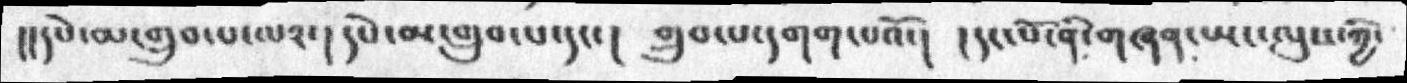།།དཔེ་མ་གྲུབ་པ་ལ༢་། དཔེ་མ་གྲུབ་པ་དང་། གྲུབ་པ་དགག་པའོ་། །དང་པོ་ནི་གཞན་ཡང་ལུས་ཀྱི་
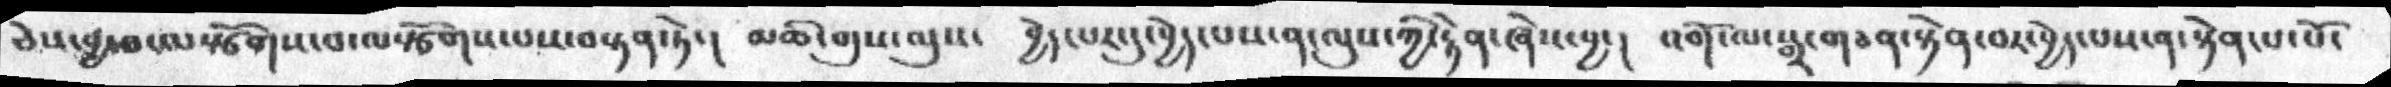ཅེས་བྱ་བ་ལསྩོགས་པ་ལསྩོགས་པས་བསྟན་ཏེ་།  མཆི་གུས་ལུས་  བྱེད་པར་དུ་བྱེད་པས་ན་ལུས་ཀྱི་རྟེན་ཞེས་བྱ་།  འགོ་ལ་སྒྲ་གཅན་སྟེན་བར་བྱེད་པས་ན་སྟེན་པ་པོ་
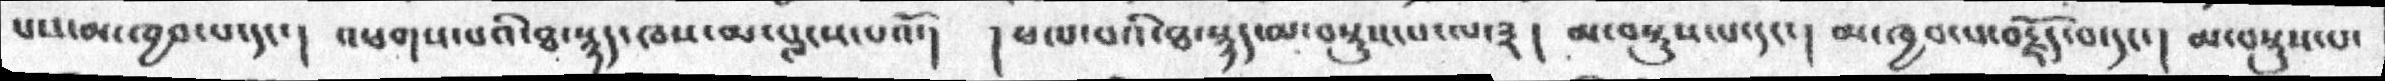པས་མ་ཁྱབ་པ་དང་། འཕགས་པའི་ཐ་སྙད་ཁས་མ་བླངས་པའོ་།  །ཕལ་པའི་ཐ སྙད་མ་བསྡུས་པ་ལ་༣། མ་བསྡུས་པ་དང་། མ་ཁྱབ་པ་བརྗོད་བ་དང་། མ་བསྡུས་པ་
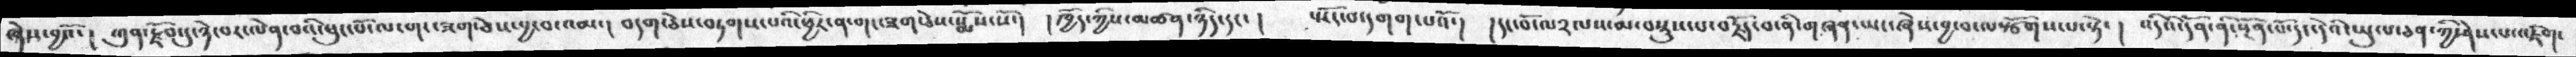ཞེས་བྱའོ་། ཀུན་རྫོབ་དུ་ཉེ་བར་ལེན་བའི་ཕུང་པོ་ལ་གང་ཟག་ཅེས་བྱ་བ་འམ་། བདག་ཅེས་བཏགས་པའི་ཕྱིར་ན་གང་ཟག་ཅེས་སྨོས་སོ་། །ཁྱོད་ཀྱི་མཚན་ཉིད་དང་། སྤོང་བ་དགག་པའོ་། དང་པོ་ལ༢ལས་མ་བསྡུས་པ་བརྗོད་བ་ནི་གཞན་ཡང་ཞེས་བྱ་བ་ལསྩོགས་པ་སྟེ་། འདིའི་དོན་ནི་སྔོན་པོ་དང་དེའི་ཡུལ་ཅན་ཀྱི་ཤེས་པ་འཇིག་
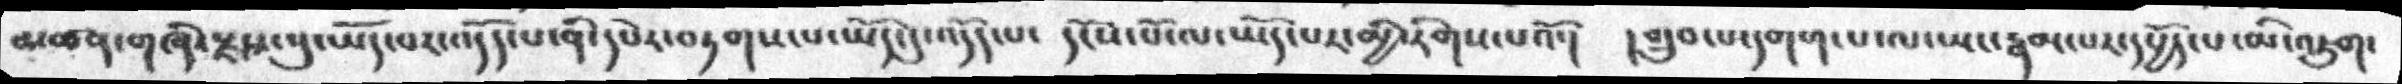མཚན་གཞི་རྫས་སུ་ཡོད་པར་འདོད་པ་ནི་དཔེར་བཏགས་པ་ཡོད་དུ་འདོད་པ་  དངོས་པོ་ལ་ཡོད་པར་མྱི་རིགས་པའོ་། །གྲུབ་པ་དགག་པ་ཡང་རྣམ་པར་དཔྱོད་པ་མི་འཇུག་
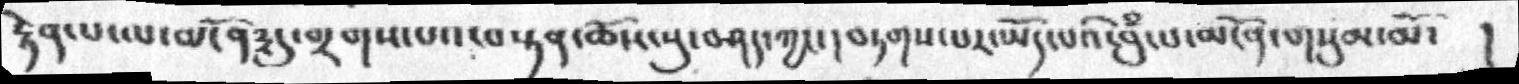རྟེན་པ་ལ་མངོན༣དུ་གྲགས་པའ་བསྟན་ཆོས་སུ་བཤད་ཀྱང་། བཏགས་པར་ཡོད་པའི་བུཾ་པ་མངོན་གསུམ་མོ་ །
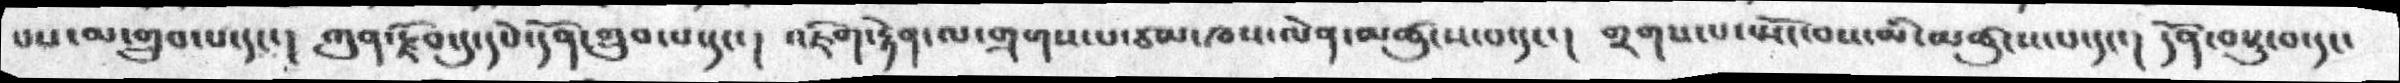པས་མ་གྲུབ་པ་དང་། ཀུན་རྫོབ་དུ་དཔེ་དོན་གྲུབ་པ་དང་།  འཇིག་རྟེན་ལ་གྲགས་པ་ཙམ་ཁས་ལེན་མཚུངས་པ་དང་། གྲགས་པ་སྤོང་བས་མི་མཚུངས་པ་དང་། དོན་བསྡུ་བ་དང་
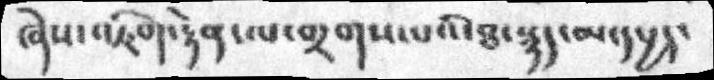ཞེས་འཇིག་རྟེན་ལ་གྲགས་པའི་ཐ་སྙད་མ་དཔྱད་
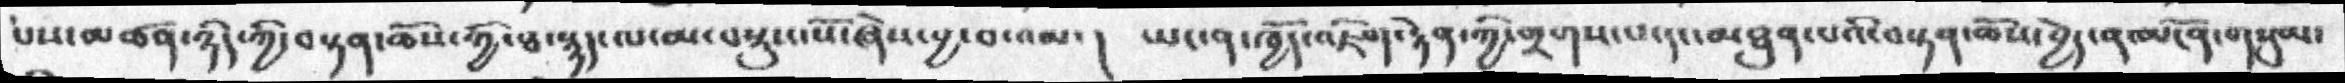པས་མཚན་ཉིད་ཀྱི་བསྟ་ཆོས་ཀྱི་ཐ་སྙད་ལ་མ་བསྡུས་སཔ་ཞེས་བྱ་བ་འམ་།  ཡང་ན་ཁྱོད་འཇིག་རྟེན་ཀྱི་གྲགས་པ་དང་མཐུན་པའི་བསྟན་ཆོས་བྱེད་ན་མངོན་གསུམ་
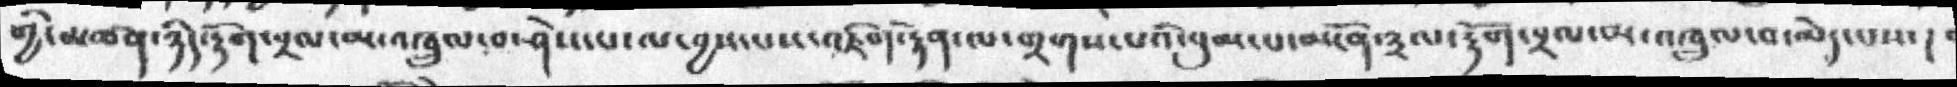གྱི་མཚན་ཉིད་རྟོག་བྲལ་མ་འཁྲུལ་བ་ཤེས་པ་ལ་བྱས་པས་འཇིག་རྟེན་ལ་གྲགས་པའི་བུམ་པ་མངོན་༣ལ་རྟོག་བྲལ་མ་འཁྲུལ་བ་མེད་པས་།
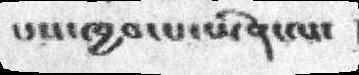པས་ཁྱབ་པ་ཡིན་ལ་
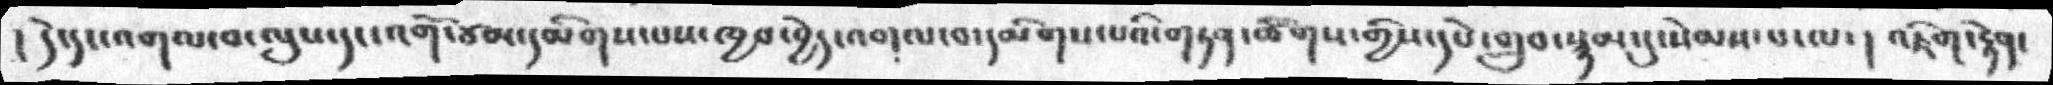། དེ་དང་འགལ་བ་ལུང་དང་འགོ་ཙམ་དམིགས་པས་ཁྱབ་བྱེད་འགལ་བ་དམིགས་པའི་གཏན་ཚིགས་གྱིས་དཔེ་གྲུབ་སྙམ་དུ་སེམས་པ་ལ་།   ། འཇིག་རྟེན་
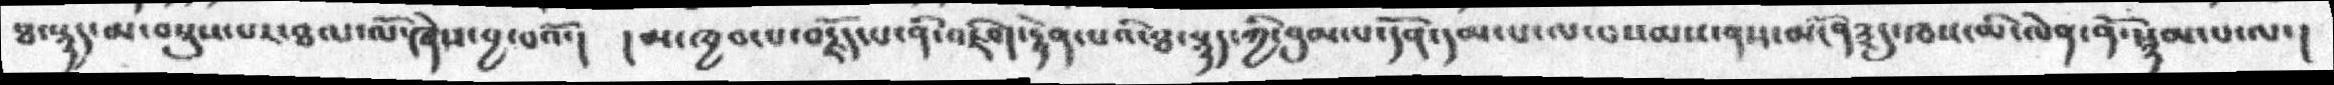ཐ་སྙད་མ་བསྡུས་པར་ཐལ་ལོ་ཞེས་བྱ་བའོ་།  །མ་ཁྱབ་པ་བརྗོད་པ་ནི་འཇིག་རྟེན་པའི་ཐ་སྙད་ཀྱི་བུམ་པ་དོན་དམ་པ་ལ་བསམས་ནས་མངོན༣དུ་ཁས་མི་ལེན་ནོ་སྙམ་པ་ལ་།
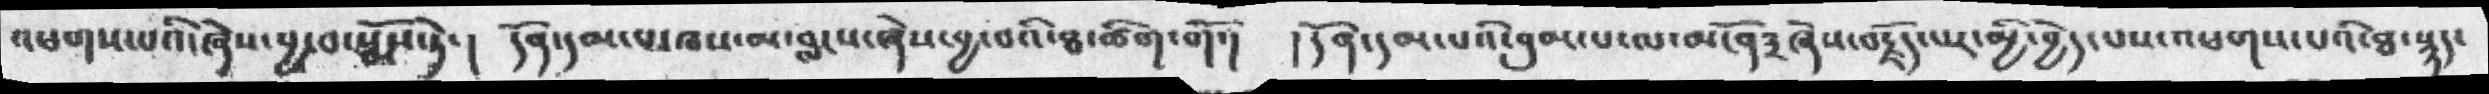འཕགས་པའི་ཞེས་བྱ་བ་སྨོས་ཏེ་། དོན་དམ་པ་ཁས་མ་བླངས་ཞེས་བྱ་བའི་ཐ་ཚིག་གོ་།  །དོན་དམ་པའི་བུམ་པ་ལ་མངོན༣ཞེས་བརྗོད་པར་མྱི་བྱེད་པས་འཕགས་པའི་ཐ་སྙད་
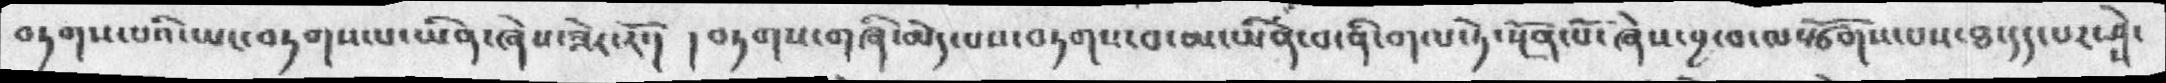བཏགས་པའི་ཡང་བཏགས་པ་ཡིན་ཞེས་ཟེར་རོ་།   ། བཏགས་གཞི་མེད་པས་བཏགས་བ་མ་ཡིན་པ་ནི་གལ་ཏེ་སྔོན་པོ་ཞེས་བྱ་བ་ལསྩོགས་པས་ཐ་དད་པར་ཤྭེ་
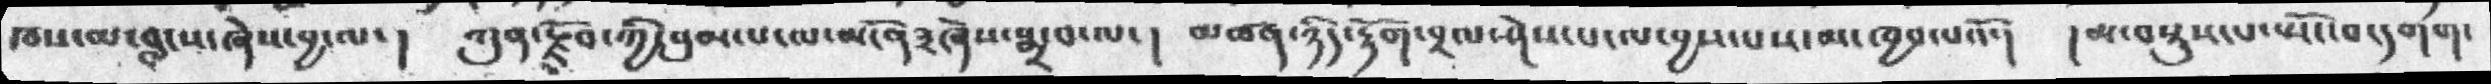ཁས་མ་བླངས་ཞེས་བྱ་ལ་།  ཀུན་རྫོབ་ཀྱི་བུམ་པ་ལ་མངོན༣ཞེས་སྨྲ་བ་ལ་།  མཚན་ཉིད་རྟོག་བྲལ་ཤེས་པ་ལ་བྱས་པས་མ་ཁྱབ་པའོ་།  །མ་བསྡུས་པ་སྤོང་བ་དགག་
